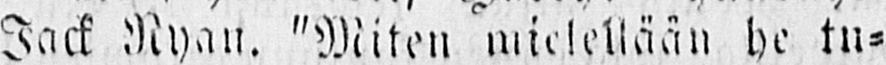Jack Nyan. "Miten "mielellään he tu-
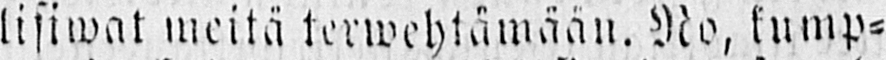lisiwat meitä terwehtämään. No, kump-
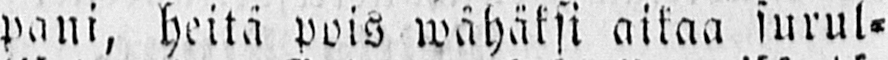pani, heitä pois wähäksi aikaa surul-
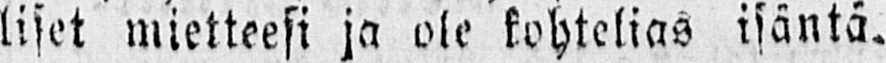liset mietteesi ja ole kohtelias isäntä.
